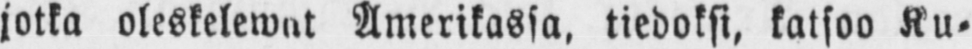jotka oleskelewat Amerikassa, tiedoksi, katsoo Ku-
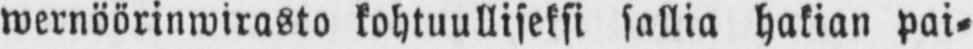wernöörinwirasto kohtuulliseksi sallia hakian pai-
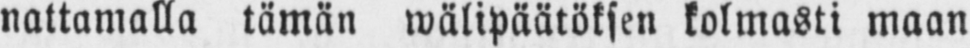nattamalla tämän wälipäätöksen kolmasti maan
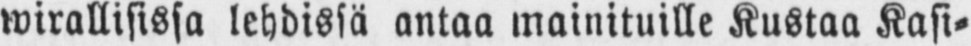wirallisissa lehdissä antaa mainituille Kustaa Kasi-
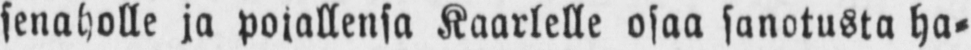senaholle ja pojallensa Kaarlelle osaa sanotusta ha-
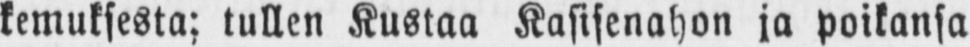kemuksesta: tullen Kustaa Kasisenahon ja poikansa
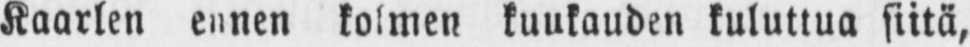Kaarlen ennen kolmen kuukauden kuluttua siitä,
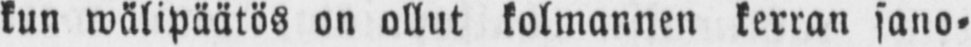kun wälipäätös on ollut kolmannen kerran sano-
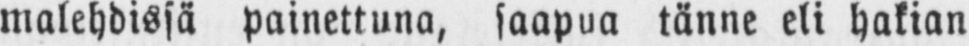malehdissä painettuna, saapua tänne eli hakian
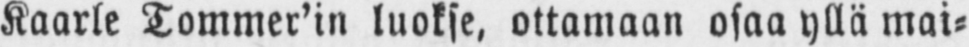Kaarle Tommer'in luokse, ottamaan osaa yllä mai-
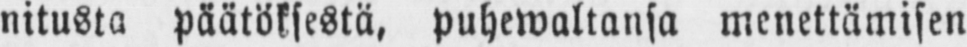nitusta päätöksestä, puhewaltansa menettämisen
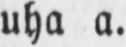uha a.
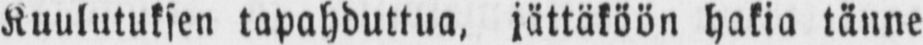Kuulutuksen tapahduttua, jättäköön hakia tänne
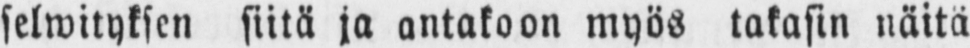selwityksen siitä ja antakoon myös takasin näitä
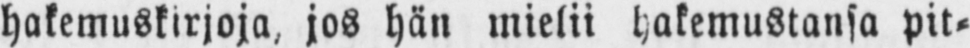hakemuskirjoja, jos hän mielii hakemustansa pit-
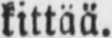kittää.
